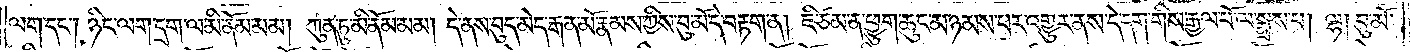ལག་དང༌། ཉིང་ལག་དྲག་ལ་མི་ནོམ་མམ། ཀུན་ཏུ་མི་ནོམ་མམ། དེ་ནས་བུད་མེད་རྒན་མོ་རྣམས་ཀྱིས་བུ་མོ་དེ་བརྟག་ན། ཇི་ཙམ་ན་ཕྱུག་ཆུང་མ་ཉམས་པར་འགྱུར་ནས་དེ་དག་གིས་རྒྱལ་པོ་ལ་སྨྲས་པ། ལྷ། བུ་མོ་
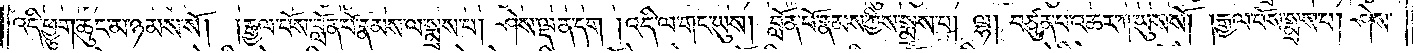འདི་ཕྱུག་ཆུང་མ་ཉམས་སོ། །རྒྱལ་པོས་བློན་པོ་རྣམས་ལ་སྨྲས་པ། ཤེས་ལྡན་དག །འདི་ལ་གང་ཡུས། བློན་པོ་རྣམས་ཀྱིས་སྨྲས་པ། ལྷ། བཙུན་པ་འཆར་ཀ་ཡུས་སོ། །རྒྱལ་པོས་སྨྲས་པ། ཤེས་
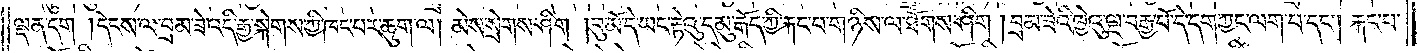ལྡན་དག །དེངས་ལ་བྲམ་ཟེ་འདི་རྒྱ་སྐེགས་ཀྱི་ཁང་པར་ཆུག་ལ། མེས་སྲེགས་ཤིག །བུ་མོ་དེ་ཡང་རྟེའུ་དམུ་རྒོད་ཀྱི་རྐང་པ་གཉིས་ལ་ཐོགས་ཤིག །བྲམ་ཟེའི་ཁྱེའུ་ལྔ་བརྒྱ་པོ་དེ་དག་ཀྱང་ལག་པ་དང༌། རྐང་པ་
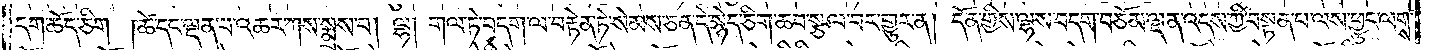དག་ཆོད་ཅིག །ཚེ་དང་ལྡན་པ་འཆར་ཀས་སྨྲས་པ། ལྷ། གལ་ཏེ་བདག་ལ་བརྟེན་ཏེ་སེམས་ཅན་དེ་སྙེད་ཅིག་ཆབ་སྩལ་བར་གྱུར་ན། དོན་གྱིས་ལྷས་བདག་བཅོམ་ལྡན་འདས་ཀྱི་བསྟན་པ་ལས་ཕྱུང་ལགས་
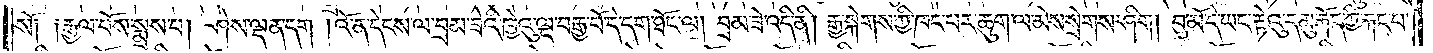སོ༑ ༑རྒྱལ་པོས་སྨྲས་པ། ཤེས་ལྡན་དག །འོ་ན་དེངས་ལ་བྲམ་ཟེའི་ཁྱེའུ་ལྔ་བརྒྱ་པོ་དེ་དག་ཐོང་ལ། བྲམ་ཟེ་འདི་ནི། རྒྱ་སྐེགས་ཀྱི་ཁང་པར་ཆུག་ལ་མེས་སྲེགས་ཤིག །བུ་མོ་དེ་ཡང་རྟེའུ་དམུ་རྒོད་ཀྱི་རྐང་པ་
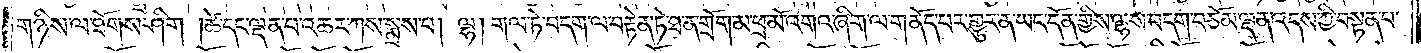གཉིས་ལ་ཐོགས་ཤིག །ཚེ་དང་ལྡན་པ་འཆར་ཀས་སྨྲས་པ། ལྷ། གལ་ཏེ་བདག་ལ་བརྟེན་ཏེ་ཐ་ན་གྲོག་མ་ཕྲ་མོ་འགའ་ཞིག་ལ་གནོད་པར་གྱུར་ན་ཡང་དོན་གྱིས་ལྷས་བདག་བཅོམ་ལྡན་འདས་ཀྱི་བསྟན་པ་
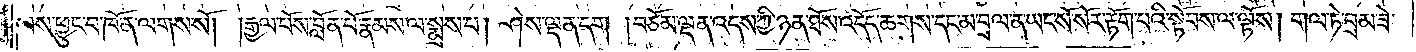ལས་ཕྱུང་བ་ཁོ་ན་ལགས་སོ། །རྒྱལ་པོས་བློན་པོ་རྣམས་ལ་སྨྲས་པ། ཤེས་ལྡན་དག །བཅོམ་ལྡན་འདས་ཀྱི་ཉན་ཐོས་འདོད་ཆགས་དང་མ་བྲལ་ན་ཡང་སོ་སོར་རྟོག་པའི་སྟོབས་ལ་ལྟོས། གལ་ཏེ་བྲམ་ཟེ་
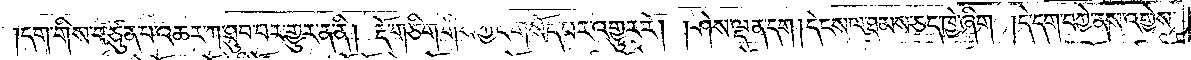དག་གིས་བཙུན་པ་འཆར་ཀ་ཐུབ་པར་གྱུར་ན་ནི། རྡོ་གཅིག་གིས་ཀྱང་གསོད་པར་འགྱུར་རོ། །ཤེས་ལྡན་དག །དེངས་ལ་ཐམས་ཅད་ཁྱེ་ཞིག །དེ་དག་བཀྱེ་ནས་འགྱེས་
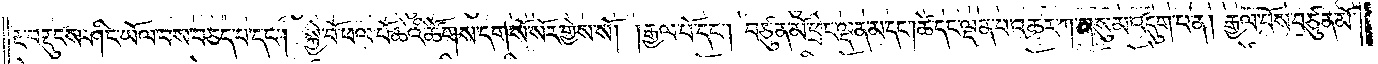རྔ་བརྡུངས་ཤིང་ཡོལ་བས་བཅད་པ་དང༌། སྐྱེ་བོ་ཕལ་པོ་ཆེའི་ཚོགས་དག་སོ་སོར་གྱེས་སོ། །རྒྱལ་པོ་དང༌། བཙུན་མོ་ཕྲེང་ལྡན་མ་དང༌། ཚེ་དང་ལྡན་པ་འཆར་ཀ་གསུམ་འདུག་པ་ན། རྒྱལ་པོས་བཙུན་མོ་
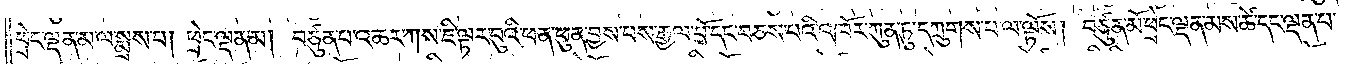ཕྲེང་ལྡན་མ་ལ་སྨྲས་པ། ཕྲེང་ལྡན་མ། བཙུན་པ་འཆར་ཀས་ཇི་ལྟར་བུའི་ཕན་ཕུན་བྱས་པས་རྒྱལ་པོ་དང་བཅས་པའི་འཁོར་ཀུན་ཏུ་དཀྲུགས་པ་ལ་ལྟོས། བཙུན་མོ་ཕྲེང་ལྡན་མས་ཚེ་དང་ལྡན་པ་
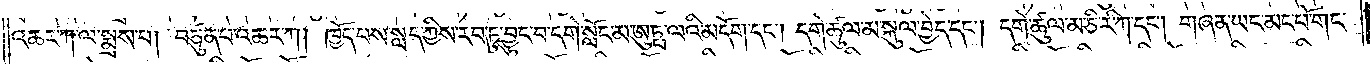འཆར་ཀ་ལ་སྨྲས་པ། བཙུན་པ་འཆར་ཀ། ཁྱོད་པས་སླད་ཀྱིས་རབ་ཏུ་བྱུང་བ་དགེ་སློང་མ་ཨུཏྤ་ལའི་མདོག་དང༌། དགེ་ཚུལ་མ་སྐུལ་བྱེད་དང༌། དགེ་ཚུལ་མ་ཅི་རི་ཀ་དང༌། གཞན་ཡང་མང་པོ་གང་
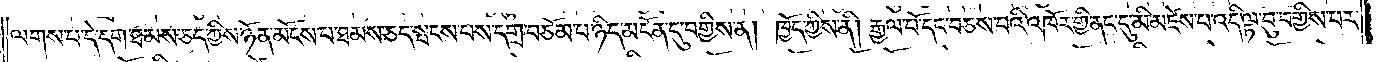ལགས་པ་དེ་དག་ཐམས་ཅད་ཀྱིས་ཉོན་མོངས་པ་ཐམས་ཅད་སྤངས་པས་དགྲ་བཅོམ་པ་ཉིད་མངོན་དུ་བགྱིས་ན། ཁྱོད་ཀྱིས་ནི། རྒྱལ་པོ་དང་བཅས་པའི་འཁོར་གྱི་ནང་དུ་མི་མཛེས་པ་འདི་ལྟ་བུ་བགྱིས་པར་
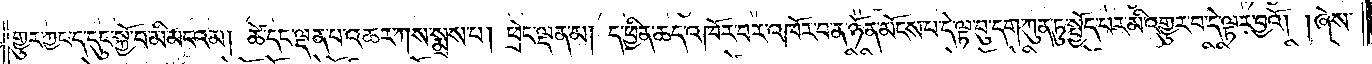གྱུར་ཀྱང་ད་དུང་སྐྱོ་བ་མི་མངའམ། ཚེ་དང་ལྡན་པ་འཆར་ཀས་སྨྲས་པ། ཕྲེང་ལྡན་མ། ད་ཕྱིན་ཆད་འཁོར་བར་འཁོར་བ་ན་ཉོན་མོངས་པ་དེ་ལྟ་བུ་དག་ཀུན་ཏུ་སྤྱོད་པར་མི་འགྱུར་བ་དེ་ལྟར་བྱའོ། །ཞེས་
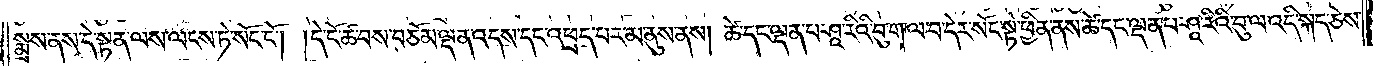སྨྲས་ནས་དེ་སྟན་ལས་ལངས་ཏེ་སོང་ངོ༌། །དེ་ངོ་ཚ་བས་བཅོམ་ལྡན་འདས་དང་འཕྲད་པར་མ་ནུས་ནས། ཚེ་དང་ལྡན་པ་ཤཱ་རིའི་བུ་ག་ལ་བ་དེར་སོང་སྟེ་ཕྱིན་ནས་ཚེ་དང་ལྡན་པ་ཤཱ་རིའི་བུ་ལ་འདི་སྐད་ཅེས་
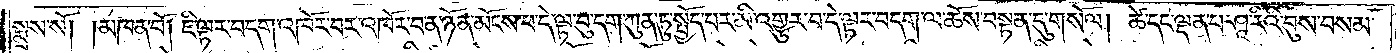སྨྲས་སོ། །མཁན་པོ། ཇི་ལྟར་བདག་འཁོར་བར་འཁོར་བ་ན་ཉོན་མོངས་པ་དེ་ལྟ་བུ་དག་ཀུན་ཏུ་སྤྱོད་པར་མི་འགྱུར་པ་དེ་ལྟར་བདག་ལ་ཆོས་བསྟན་དུ་གསོལ། ཚེ་དང་ལྡན་པ་ཤཱ་རིའི་བུས་བསམ་
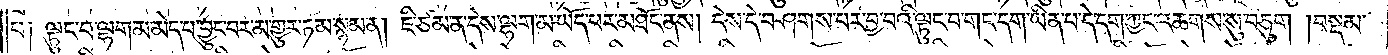པ༑ ལྟུང་བ་ལྷག་མ་མེད་པ་བྱུང་བར་མ་གྱུར་ཏམ་སྙམ་ན། ཇི་ཙམ་ན་དེས་ལྷག་མ་ཡོད་པར་མཐོང་ནས། དེས་དེ་བཤགས་པར་བྱ་བའི་ལྟུང་བ་གང་དག་ཡིན་པ་དེ་དག་ཀྱང་འཆགས་སུ་བཅུག །བསྡམ་
